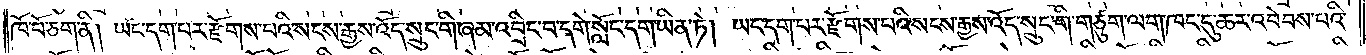ཁོ་བོ་ཅག་ནི། ཡང་དག་པར་རྫོགས་པའི་སངས་རྒྱས་འོད་སྲུང་གི་ཞམ་འབྲིང་བ་དགེ་སློང་དག་ཡིན་ཏེ། ཡང་དག་པར་རྫོགས་པའི་སངས་རྒྱས་འོད་སྲུང་གི་གཙུག་ལག་ཁང་དུ་ཆར་འབེབས་པའི་
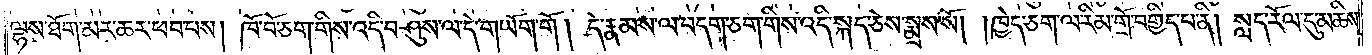ལྷས་ཐོག་མར་ཆར་ཕབ་པས། ཁོ་བོ་ཅག་གིས་འདི་བཤུས་ལ་དེ་གཡོག་གོ། དེ་རྣམས་ལ་བདག་ཅག་གིས་འདི་སྐད་ཅེས་སྨྲས་སོ། །ཁྱེད་ཅག་ལ་རིམ་གྲོ་བགྱིད་པ་ནི། སླད་རོལ་དུ་མཆིས་
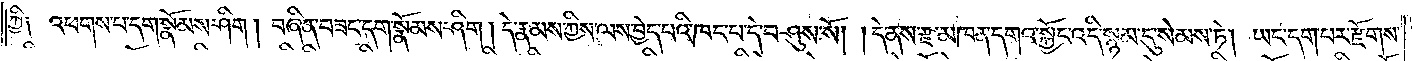ཀྱི། འཕགས་པ་དག་སྣོམས་ཤིག། བཞིན་བཟང་དག་སྣོམས་ཤིག། དེ་རྣམས་ཀྱིས་ལས་བྱེད་པའི་ཁང་པ་དེ་བཤུས་སོ། །དེ་ནས་རྫ་མཁན་དགའ་སྐྱོང་འདི་སྙམ་དུ་སེམས་ཏེ། ཡང་དག་པར་རྫོགས་
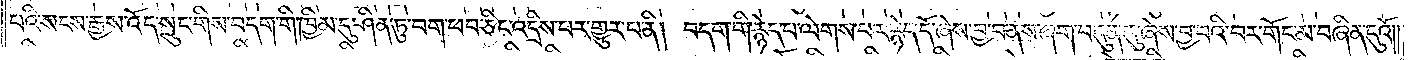པའི་སངས་རྒྱས་འོད་སྲུང་གིས་བདག་གི་ཁྱིམ་དུ་ཤིན་ཏུ་བག་ཕབ་ཅིང་འདྲིས་པར་གྱུར་པ་ནི། བདག་གི་རྙེད་པ་ལེགས་པར་རྙེད་དོ་ཞེས་བྱ་བ་ནས་ཞག་བདུན་དུ་ཞེས་བྱ་བའི་བར་གོང་མ་བཞིན་དུའོ༎
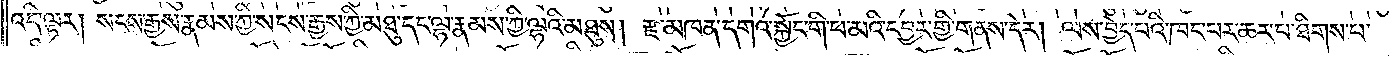འདི་ལྟར། སངས་རྒྱས་རྣམས་ཀྱི་སངས་རྒྱས་ཀྱི་མཐུ་དང་ལྷ་རྣམས་ཀྱི་ལྷའི་མཐུས། རྫ་མཁན་དགའ་སྐྱོང་གི་ཕ་མའི་དབྱར་གྱི་གནས་དེར། ལས་བྱེད་པའི་ཁང་པར་ཆར་པ་ཐིགས་པ་
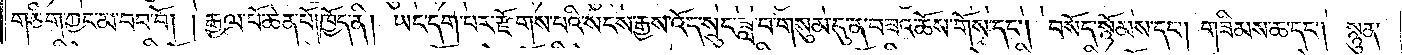གཅིག་ཀྱང་མ་བབ་བོ། །རྒྱལ་པོ་ཆེན་པོ་ཁྱོད་ནི། ཡང་དག་པར་རྫོགས་པའི་སངས་རྒྱས་འོད་སྲུང་ཟླ་བ་གསུམ་དུ་ན་བཟའ་ཆོས་གོས་དང༌། བསོད་སྙོམས་དང༌། གཟིམས་ཆ་དང༌། སྙུན་
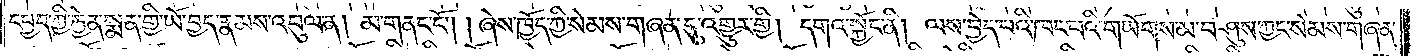དཔྱད་ཀྱི་རྐྱེན་སྨན་གྱི་ཡོ་བྱད་རྣམས་འབུལ་ན། མ་གནང་ངོ༌། །ཞེས་ཁྱོད་ཀྱི་སེམས་གཞན་དུ་འགྱུར་གྱི། དགའ་སྐྱོང་ནི། ལས་བྱེད་པའི་ཁང་པའི་གཡོགས་མ་བཤུས་ཀྱང་སེམས་གཞན་
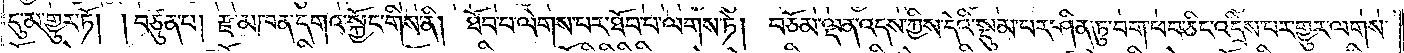དུ་མ་གྱུར་ཏོ། །བཙུན་པ། རྫ་མཁན་དགའ་སྐྱོང་གིས་ནི། ཐོབ་པ་ལེགས་པར་ཐོབ་པ་ལགས་ཏེ། བཅོམ་ལྡན་འདས་ཀྱིས་དེའི་སྡུམ་པར་ཤིན་ཏུ་བག་ཕབ་ཅིང་འདྲིས་པར་གྱུར་ལགས་
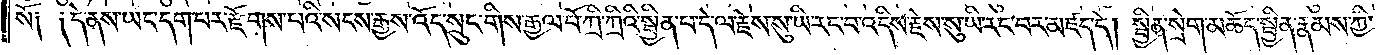སོ། །དེ་ནས་ཡང་དག་པར་རྫོགས་པའི་སངས་རྒྱས་འོད་སྲུང་གིས་རྒྱལ་པོ་ཀྲི་ཀྲིའི་སྦྱིན་པ་དེ་ལ་རྗེས་སུ་ཡི་རང་བ་འདིས་རྗེས་སུ་ཡི་རང་བར་མཛད་དེ། སྦྱིན་སྲེག་མཆོད་སྦྱིན་རྣམས་ཀྱི་
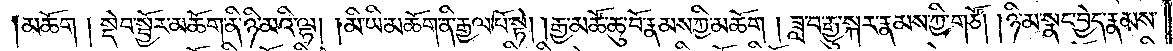མཆོག །སྡེབ་སྦྱོར་མཆོག་ནི་ཉི་མའི་ལྷ། །མི་ཡི་མཆོག་ནི་རྒྱལ་པོ་སྟེ། །རྒྱ་མཚོ་ཆུ་བོ་རྣམས་ཀྱི་མཆོག། ཟླ་བ་རྒྱུ་སྐར་རྣམས་ཀྱི་གཙོ། །ཉི་མ་སྣང་བྱེད་རྣམས་
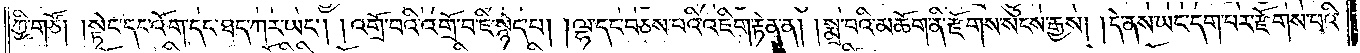ཀྱི་གཙོ། །སྟེང་དང་འོག་དང་ཐད་ཀར་ཡང༌། །འགྲོ་བའི་འགྲོ་བ་ཇི་སྙེད་པ། །ལྷ་དང་བཅས་པའི་འཇིག་རྟེན་ན། །སྨྲ་བའི་མཆོག་ནི་རྫོགས་སངས་རྒྱས། །དེ་ནས་ཡང་དག་པར་རྫོགས་པའི་
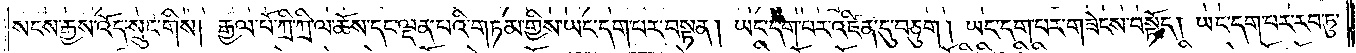སངས་རྒྱས་འོད་སྲུང་གིས། རྒྱལ་པོ་ཀྲི་ཀྲི་ལ་ཆོས་དང་ལྡན་པའི་གཏམ་གྱིས་ཡང་དག་པར་བསྟན། ཡང་དག་པར་འཛིན་དུ་བཅུག། ཡང་དག་པར་གཟེངས་བསྟོད། ཡང་དག་པར་རབ་ཏུ་
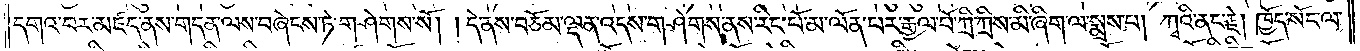དགའ་བར་མཛད་ནས་གདན་ལས་བཞེངས་ཏེ་གཤེགས་སོ། །དེ་ནས་བཅོམ་ལྡན་འདས་གཤེགས་ནས་རིང་པོ་མ་ལོན་པར་རྒྱལ་པོ་ཀྲི་ཀྲིས་མི་ཞིག་ལ་སྨྲས་པ། ཀྭའི་ནང་རྗེ། ཁྱོད་སོང་ལ་
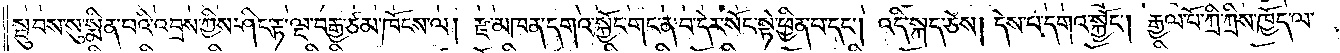སྦུབས་སུ་སྨིན་པའི་འབྲས་ཀྱིས་ཤིང་རྟ་ལྔ་བརྒྱ་ཙམ་ཁོངས་ལ། རྫ་མཁན་དགའ་སྐྱོང་གང་ན་བ་དེར་སོང་སྟེ་ཕྱིན་པ་དང༌། འདི་སྐད་ཅེས། དེས་པ་དགའ་སྐྱོང༌། རྒྱལ་པོ་ཀྲི་ཀྲིས་ཁྱོད་ལ་
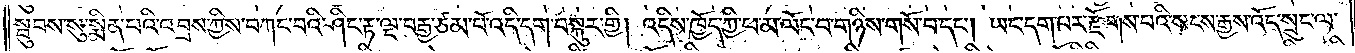སྦུབས་སུ་སྨིན་པའི་འབྲས་ཀྱིས་བཀང་བའི་ཤིང་རྟ་ལྔ་བརྒྱ་ཙམ་པོ་འདི་དག་བསྐུར་གྱི། འདིས་ཁྱོད་ཀྱི་ཕ་མ་ལོང་བ་གཉིས་གསོ་བ་དང༌། ཡང་དག་པར་རྫོགས་པའི་སངས་རྒྱས་འོད་སྲུང་ལ་
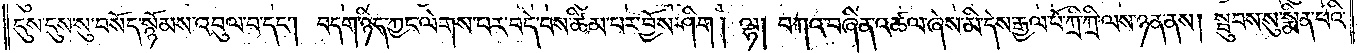དུས་དུས་སུ་བསོད་སྙོམས་འབུལ་བ་དང༌། བདག་ཉིད་ཀྱང་ལེགས་པར་བདེ་བས་ཚིམ་པར་བྱོས་ཤིག། ལྷ། བཀའ་བཞིན་འཚལ་ཞེས་མི་དེས་རྒྱལ་པོ་ཀྲི་ཀྲི་ལས་ཉན་ནས། སྦུབས་སུ་སྨིན་པའི་
